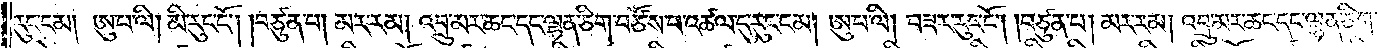རུང་ངམ། ཨུ་པ་ལི། མི་རུང་ངོ༌། །བཙུན་པ། མར་རམ། འབྲུ་མར་ཆང་དང་ལྷན་ཅིག་བཙོས་པ་འཚལ་དུ་རུང་ངམ། ཨུ་པ་ལི། བཟར་རུང་ངོ༌། །བཙུན་པ། མར་རམ། འབྲུ་མར་ཆང་དང་ལྷན་ཅིག་
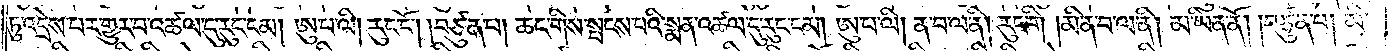ཏུ་འདྲེས་པར་གྱུར་པ་འཚལ་དུ་རུང་ངམ། ཨུ་པ་ལི། རུང་ངོ༌། །བཙུན་པ། ཆང་གིས་སྤངས་པའི་སྨན་འཚལ་དུ་རུང་ངམ། ཨུ་པ་ལི། ན་བ་ལ་ནི། རུང་གི །མི་ན་བ་ལ་ནི། མ་ཡིན་ནོ། །བཙུན་པ། མི་
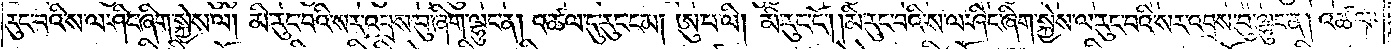རུང་བའི་ས་ལ་ཤིང་ཞིག་སྐྱེས་ལ། མི་རུང་བའི་སར་འབྲས་བུ་ཞིག་ལྷུང་ན། འཚལ་དུ་རུང་ངམ། ཨུ་པ་ལི། མི་རུང་ངོ༌། །མི་རུང་བའི་ས་ལ་ཤིང་ཞིག་སྐྱེས་ལ་རུང་བའི་སར་འབྲས་བུ་ལྷུང་ན། འཚལ་
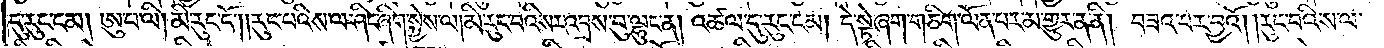དུ་རུང་ངམ། ཨུ་པ་ལི། མི་རུང་ངོ༌། །རུང་བའི་ས་ལ་ཤིང་ཞིག་སྐྱེས་ལ། མི་རུང་བའི་སར་འབྲས་བུ་ལྷུང་ན། འཚལ་དུ་རུང་ངམ། དེ་སྟེ་ཞག་གཅིག་ལོན་པར་མ་གྱུར་ན་ནི། བཟའ་བར་བྱའོ། །རུང་བའི་ས་ལ་
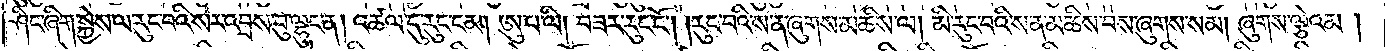ཤིང་ཞིག་སྐྱེས་ལ་རུང་བའི་སར་འབྲས་བུ་ལྷུང་ན། འཚལ་དུ་རུང་ངམ། ཨུ་པ་ལི། བཟར་རུང་ངོ༌། །རུང་བའི་ས་ན་ཞུགས་མཆིས་ལ། མི་རུང་བའི་ས་ན་མཆིས་བས་ཞུགས་སམ། ཞུགས་ལྕེའམ།
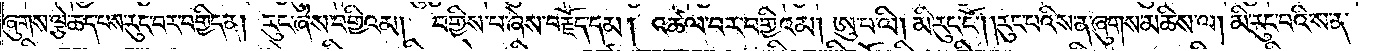ཞུགས་ལྕེ་ཆད་པས་རུང་བར་བགྱིད་ན། རུང་ཞེས་བགྱིའམ། བགྱིས་པ་ཞེས་བརྗོད་དམ། འཚལ་བར་བགྱིའམ། ཨུ་པ་ལི། མི་རུང་ངོ༌། །རུང་པའི་ས་ན་ཞུགས་མཆིས་ལ། མི་རུང་བའི་ས་ན་
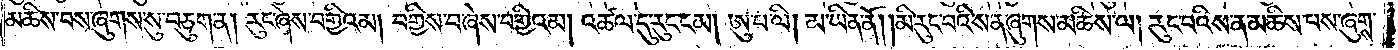མཆིས་པས་ཞུགས་སུ་བཅུག་ན། རུང་ཞེས་བགྱིའམ། བགྱིས་པ་ཞེས་བགྱིའམ། འཚལ་དུ་རུང་ངམ། ཨུ་པ་ལི། མ་ཡིན་ནོ། །མི་རུང་བའི་ས་ན་ཞུགས་མཆིས་ལ། རུང་བའི་ས་ན་མཆིས་པས་ཞུགས་
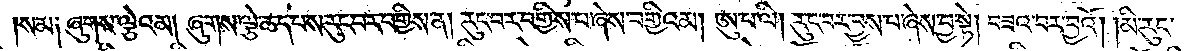སམ༑ ཞུགས་ལྕེའམ། ཞུགས་ལྕེ་ཆད་པས་རུང་བར་བགྱིས་ན། རུང་བར་བགྱིས་པ་ཞེས་བགྱིའམ། ཨུ་པ་ལི། རུང་བར་བྱས་པ་ཞེས་བྱ་སྟེ། བཟའ་བར་བྱའོ། །མི་རུང་
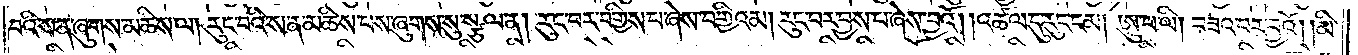བའི་ས་ན་ཞུགས་མཆིས་ལ། རུང་བའི་ས་ན་མཆིས་པས་ཞུགས་སུ་སྩལ་ན། རུང་བར་བགྱིས་པ་ཞེས་བགྱིའམ། རུང་བར་བྱས་པ་ཞེས་བྱའོ། །འཚལ་དུ་རུང་ངམ། ཨུ་པ་ལི། བཟའ་བར་བྱའོ། །མི་
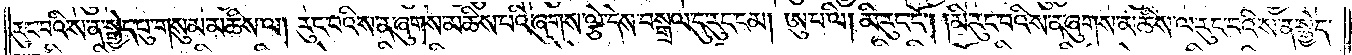རུང་བའི་ས་ན་སྒྱེད་པུ་གསུམ་མཆིས་ལ། རུང་བའི་ས་ན་ཞུགས་མཆིས་པའི་ཞུགས་ལྕེ་དེས་བསྒྲལ་དུ་རུང་ངམ། ཨུ་པ་ལི། མི་རུང་ངོ༌། །མི་རུང་བའི་ས་ན་ཞུགས་མཆིས་ལ་རུང་བའི་ས་ན་སྒྱེད་
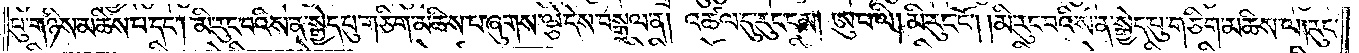པུ་གཉིས་མཆིས་པ་དང༌། མི་རུང་བའི་ས་ན་སྒྱེད་པུ་གཅིག་མཆིས་པ་ཞུགས་ལྕེ་དེས་བསྒྲལ་ན། འཚལ་དུ་རུང་ངམ། ཨུ་པ་ལི། མི་རུང་ངོ༌། །མི་རུང་བའི་ས་ན་སྒྱེད་བུ་གཅིག་མཆིས་ལ། རུང་
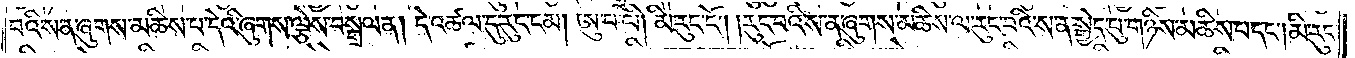བའི་ས་ན་ཞུགས་མཆིས་པ་དེའི་ཞུགས་ལྕེས་བསྒྲལ་ན། དེ་འཚལ་དུ་རུང་ངམ། ཨུ་པ་ལི། མི་རུང་ངོ༌། །རུང་བའི་ས་ན་ཞུགས་མཆིས་ལ་རུང་བའི་ས་ན་སྒྱེད་བུ་གཉིས་མཆིས་པ་དང༌། མི་རུང་
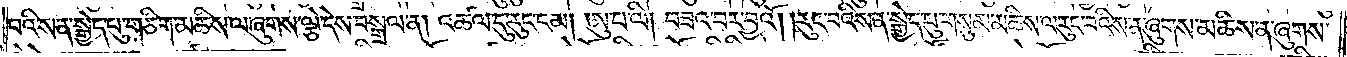པའི་ས་ན་སྒྱེད་པུ་གཅིག་མཆིས་ལ་ཞུགས་ལྕེ་དེས་བསྒྲལ་ན། འཚལ་དུ་རུང་ངམ། ཨུ་པ་ལི། བཟའ་བར་བྱའོ། །རུང་བའི་ས་ན་སྒྱེད་པུ་གསུམ་མཆིས་ལ་རུང་བའི་ས་ན་ཞུགས་མཆིས་ན་ཞུགས་
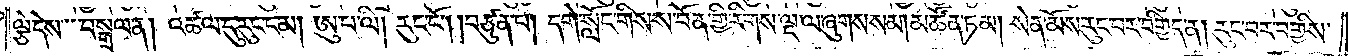ལྕེ་དེས་བསྒྲལ་ན། འཚལ་དུ་རུང་ངམ། ཨུ་པ་ལི། རུང་ངོ༌། །བཙུན་པ། དགེ་སློང་གིས་ས་བོན་གྱི་རིགས་ལྔ་ལ་ཞུགས་སམ། མཚོན་ཏམ། སེན་མོས་རུང་བར་བགྱིད་ན། རུང་བར་བགྱིས་
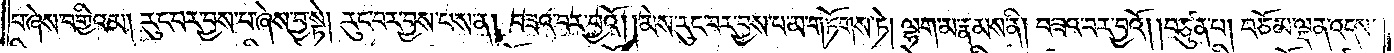པ་ཞེས་བགྱིའམ། རུང་བར་བྱས་པ་ཞེས་བྱ་སྟེ། རུང་བར་བྱས་པས་ན། བཟའ་བར་བྱའོ། །མེས་རུང་བར་བྱས་པ་མ་གཏོགས་ཏེ། ལྷག་མ་རྣམས་ནི། བཟའ་བར་བྱའོ། །བཙུན་པ། བཅོམ་ལྡན་འདས་
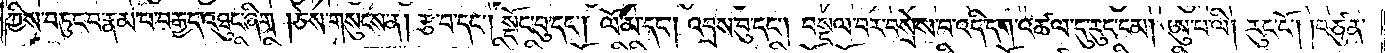ཀྱིས་བཏུང་བ་རྣམ་པ་བརྒྱད་འཐུང་ཞིག །ཅེས་གསུངས་ན། རྩ་བ་དང༌། སྡོང་བུ་དང༌། ལོ་མ་དང༌། འབྲས་བུ་དང༌། བསྔལ་བར་བསྲེས་པ་འདི་དག་འཚལ་དུ་རུང་ངམ། ཨུ་པ་ལི། རུང་ངོ༌། །བཙུན་
